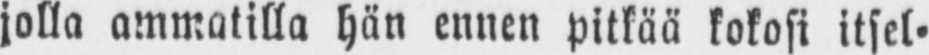jolla ammatilla hän ennen pitkää kokosi itsel-
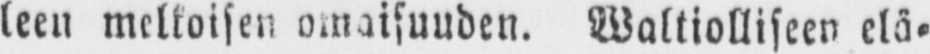leen melkoisen omaisuuden. Waltiolliseen elä-
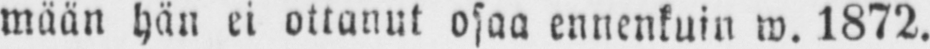mään hän ei ottanut osaa ennenkuin w. 1872.
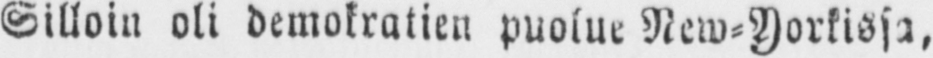Silloin oli demokratien puolue New-Yorkissa,
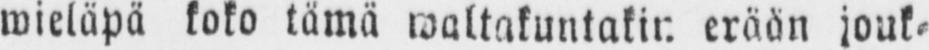wieläpä koko tämä waltakuntakin erään jouk-
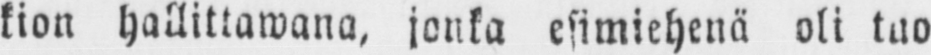kion hallittawana, jonka esimiehenä oli tuo
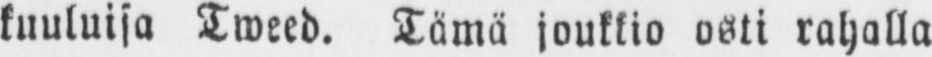kuuluisa Tweed. Tämä joukkio osti rahalla
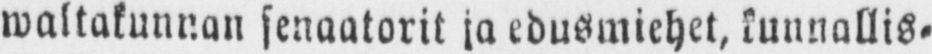waltakunnan senaatorit ja edusmiehet, kunnallis-
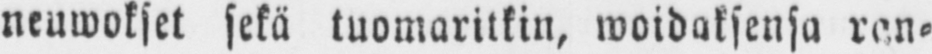neuwokset sekä tuomaritkin, woidaksensa ran-
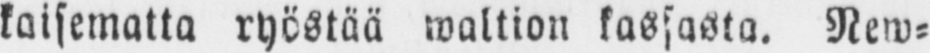kaisematta ryöstää waltion kassasta. New-
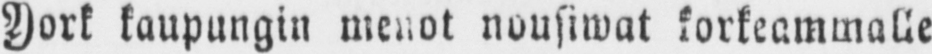York kaupungin menot nousiwat korkeammalle
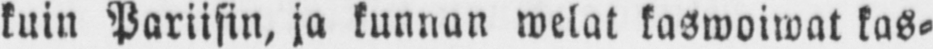kuin Pariisin, ja kunnan welat kaswoiwat kas-
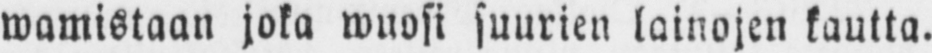wamistaan joka wuosi suurien lainojen kautta.
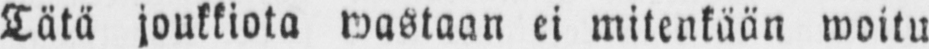Tätä joukkiota wastaan ei mitenkään woitu
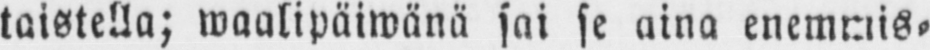taistella; waalipäiwänä sai se aina enemmis-
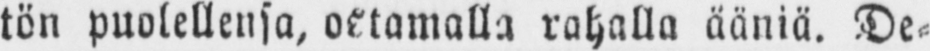tön puolellensa, ostamalla rahalla ääniä. De-
